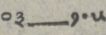༠༣—༡.༥
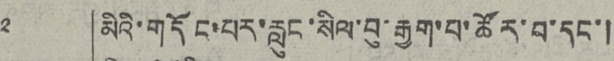༢   མིའི་གདོང་པར་རླུང་སིལ་བུ་རྒྱག་པ་ཚོར་བ་དང་།
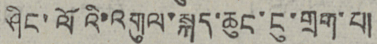ཤིང་ལོའི་འགུལ་སྐད་ཆུང་ངུ་གྲག་པ།
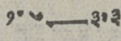༡.༦—༣.༣
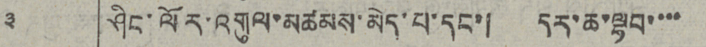༣   ཤིང་ལོར་འགུལ་མཚམས་མེད་པ་དང་། དར་ཆ་ལྷབ་་་་
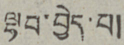ལྷབ་བྱེད་པ།
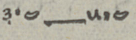༣.༤—༥.༤
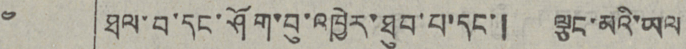༤   ཐལ་བ་དང་ཤོག་བུ་འཁྱེར་ཐུབ་པ་དང་། ལྕང་མའི་ཡལ
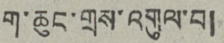ག་ཆུང་གྲས་འགུལ་བ།
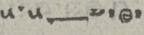༥.༥—༧.༩
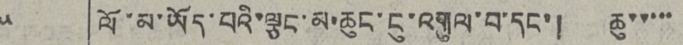༥   ལོ་མ་ཡོད་པའི་ལྕང་མ་ཆུང་ངུ་འགུལ་བ་དང་། ཆུ་་་་་
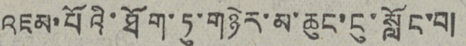འཇམ་པོའི་ཐོག་ཏུ་གཉེར་མ་ཆུང་ངུ་སློང་བ།
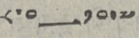༨.༠—༡༠.༧
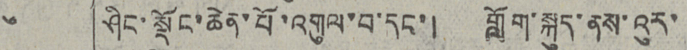༦   ཤིང་སྡོང་ཆེན་པོ་འགུལ་བ་དང་། གློག་སྐུད་ནས་འུར་
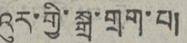འུར་གྱི་སྒྲ་གྲག་པ།
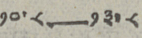༡༠.༨—༡༣.༨
